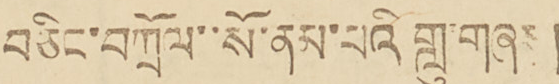བཅིང་བཀྲོལ་སོ་ནས་པའི་གླུ་གཞས།
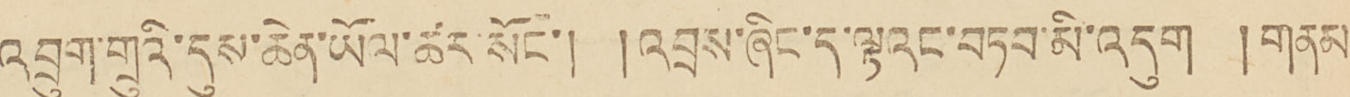འབྲུག་གྲུའི་དུས་ཆེན་ཡོལ་ཚར་སོང་། །འབྲས་ཞིང་ད་ལྟའང་བཏབ་མི་འདུག །གནམ
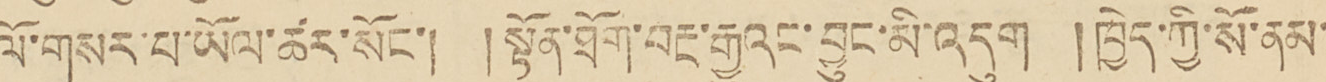ལོ་གསར་པ་ཡོལ་ཚར་སོང་། །སྟོན་ཐོག་བརྔ་རྒྱུའང་བྱུང་མི་འདུག །ཁྱེད་ཀྱི་སོ་ནམ་
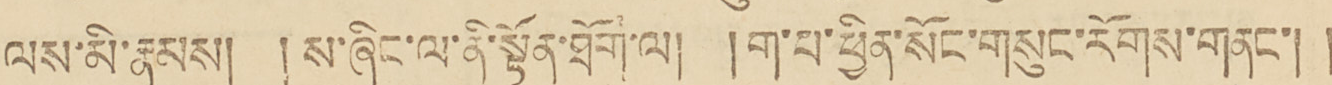ལས་མི་རྣམས། །ས་ཞིང་ལ་ནི་སྟོན་ཐོག་ལ། །ག་པ་ཕྱིན་སོང་གསུང་རོགས་གནང་། །
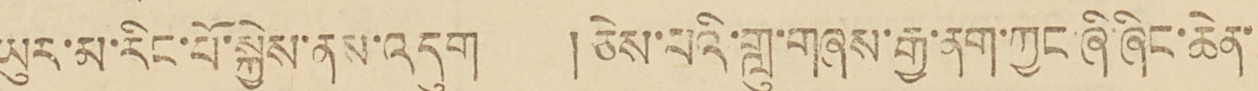ཡུར་མ་རིང་པོ་སྐྱེས་ནས་འདུག །ཅེས་པའི་གླུ་གཞས་རྒྱ་ནག་ཀྱང་ཞི་ཞིང་ཆེན་
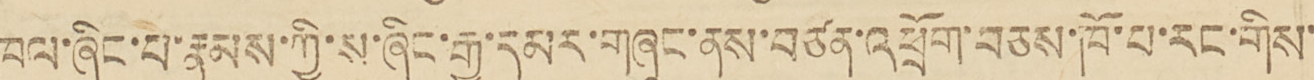ཁུལ་ཞིང་པ་རྣམས་ཀྱི་ས་ཞིང་རྒྱ་དམར་གཞུང་ནས་བཙན་འཕྲོག་བཅས་ཁོ་པ་རང་གིས་
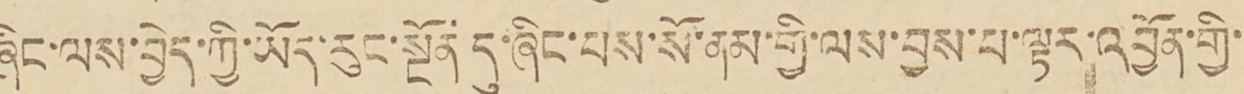ཞིང་ལས་བྱེད་ཀྱི་ཡོད་རུང་སྔོན་དུ་ཞིང་པས་སོ་ནམ་གྱི་ལས་བྱས་པ་ལྟར་འབྱོན་གྱི་
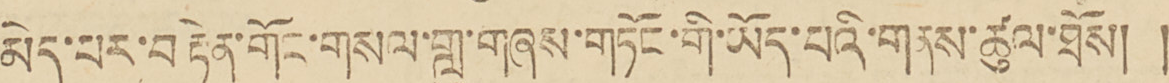མེད་པར་བརྟེན་གོང་གསལ་གླུ་གཞས་གཏོང་གི་ཡོད་པའི་གནས་ཚུལ་ཐོས། །
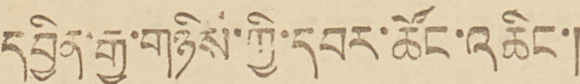དབྱིན་རྒྱ་གཉིས་ཀྱི་དབར་ཚོང་འཆིང་།
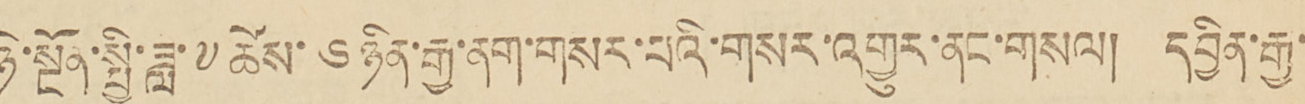ཉེ་སྔོན་སྤྱི་ཟླ་༧ ཚེས་༦ ཉིན་རྒྱ་ནག་གསར་པའི་གསར་འགྱུར་ནང་གསལ། དབྱིན་རྒྱ་
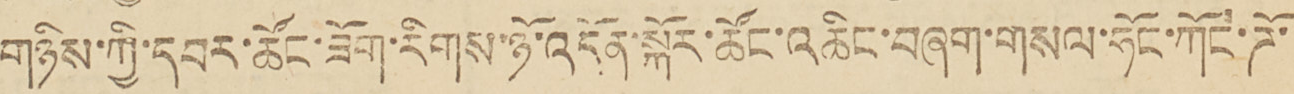གཉིས་ཀྱི་དབར་ཚོང་ཟོག་རིགས་ཉོ་འདོན་སྐོར་ཚོང་འཆིང་བཞག་གསལ་ཧོང་ཀོང་ཌོ་
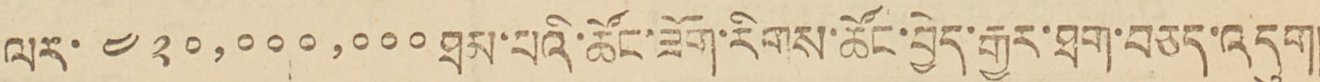ལར་ ༤༢༠,༠༠༠,༠༠༠ ཐམ་པའི་ཚོང་ཟོག་རིགས་ཚོང་བྱེད་རྒྱུར་ཐག་བཅད་འདུག།
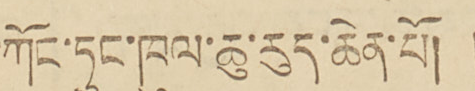ཀོང་ཏུང་ཁུལ་ཆུ་རུད་ཆེན་པོ། །
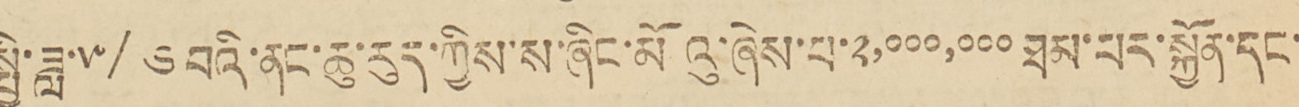སྤྱི་ཟླ་༥/༦ བའི་ནང་ཆུ་རུད་ཀྱིས་ས་ཞིང་མོའུ་ཞེས་པ་༢,༠༠༠,༠༠༠ ཐམ་པར་སྐྱོན་དང་
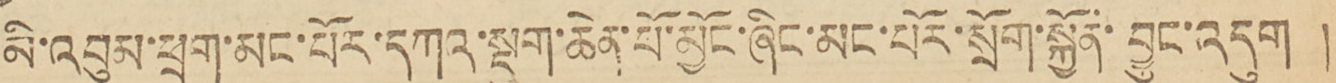མི་འབུམ་ཕྲག་མང་པོར་དཀའ་སྡུག་ཆེན་པོ་མྱོང་ཞིང་མང་པོར་སྲོག་སྐྱོན་བྱུང་འདུག །
